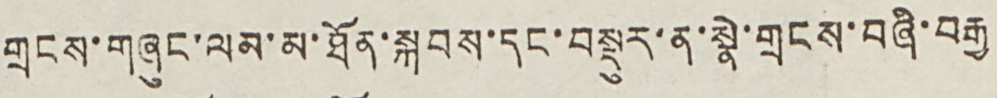གྲངས་གཞུང་ལམ་མ་ཐོན་སྐབས་དང་བསྡུར་ན་སྣེ་གྲངས་བཞི་བརྒྱ
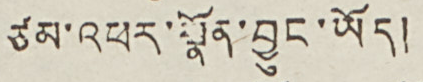ཙམ་འཕར་སྣོན་བྱུང་ཡོད།
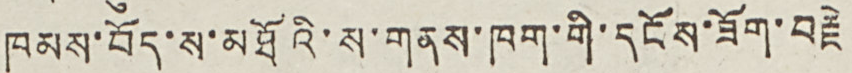ཁམས་བོད་ས་མཐོའི་ས་གནས་ཁག་གི་དངོས་ཟོག་བརྗེ
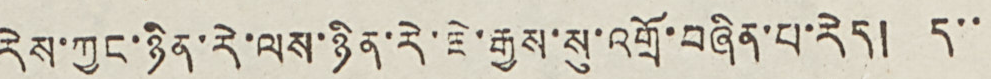རེས་ཀྱང་ཉིན་རེ་ལས་ཉིན་རེ་ཇེ་རྒྱས་སུ་འགྲོ་བཞིན་པ་རེད། ད་་
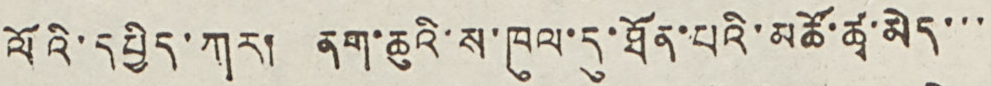ལོའི་དཔྱིད་ཀར། ནག་ཆུའི་ས་ཁུལ་དུ་ཐོན་པའི་མཚོ་ཚྭ་མེད་་་
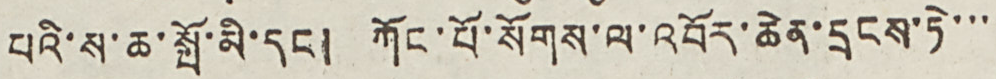པའི་ས་ཆ་སྤོ་མི་དང ། ཀོང་པོ་སོགས་ལ་འབོར་ཆེན་དྲངས་ཏེ་་་
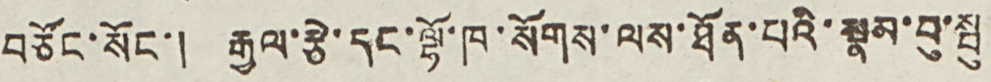བཙོང་སོང་། རྒྱལ་རྩེ་དང་ལྷོ་ཁ་སོགས་ལས་ཐོན་པའི་སྣམ་བུ་སྦུ
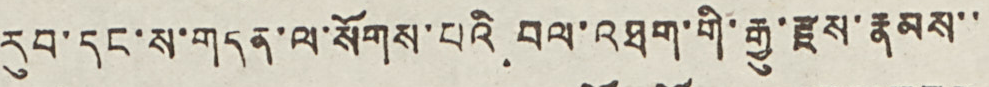རུབ་དང་ས་གདན་ལ་སོགས་པའི བལ་འཐག་གི་རྒྱུ་རྫས་རྣམས་་
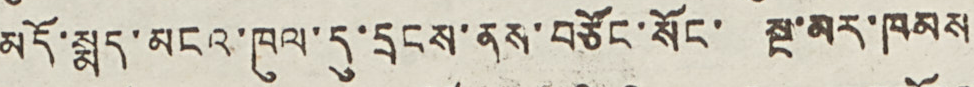མདོ་སྨད་མངའ་ཁུལ་དུ་དྲངས་ནས་བཙོང་སོང་ སྔ་མར་ཁམས
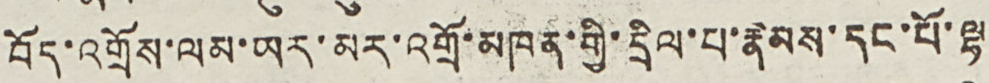བོད་འགྲོས་ལམ་ཡར་མར་འགྲོ་མཁན་གྱི་དྲིལ་པ་རྣམས་དང་པོ་ལྷ
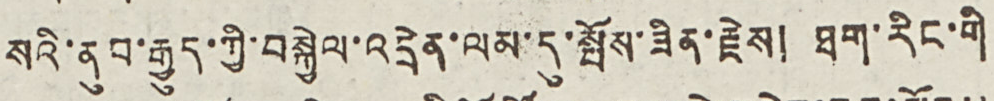སའི་ནུབ་རྒྱུད་ཀྱི་བསྐྱེལ་འདྲེན་ལམ་དུ་སྤོས་ཟིན་རྗེས། ཐག་རིང་གི
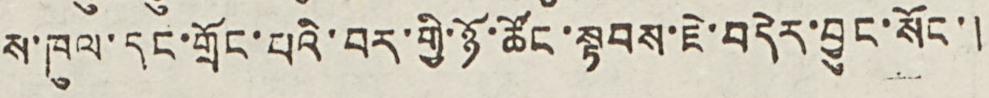ས་ཁུལ་དང་གྲོང་པའི་བར་གྱི་ཉོ་ཚོང་སྟབས་ཇེ་བདེར་བྱུང་སོང་།
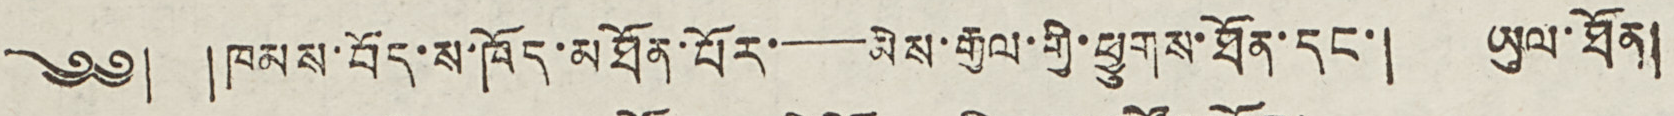༄༅། །ཁམས་བོད་ས་ཁོད་མཐོན་པོར་——མེས་རྒྱལ་གྱི་ཕྱུགས་ཐོན་དང་། ཡུལ་ཐོན།
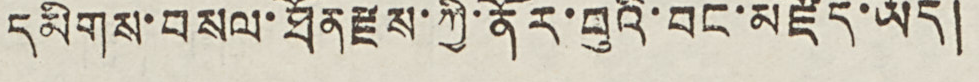དམིགས་བསལ་ཐོན རྫས་ཀྱི་ནོར་བུའི་བང་མཛོད་ཡོད།
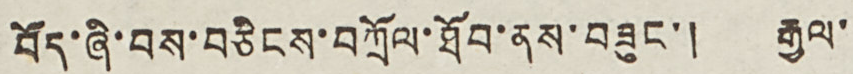བོད་ཞི་བས་བཅིངས་བཀྲོལ་ཐོབ་ནས་བཟུང་། རྒྱལ་
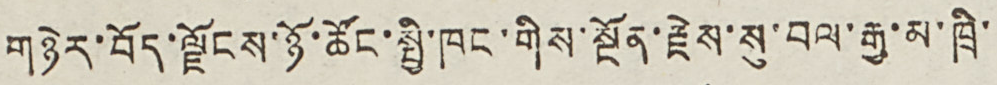གཉེར་བོད་ལྗོངས་ཉོ་ཚོང་སྤྱི་ཁང་གིས་སྔོན་རྗེས་སུ་བལ་རྒྱ་མ་ཁྲི་
